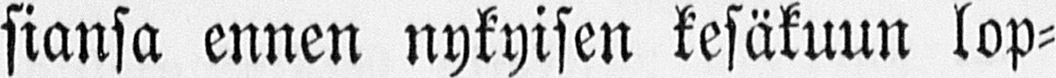siansa ennen nykyisen kesäkuun lop-
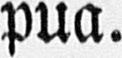pua.
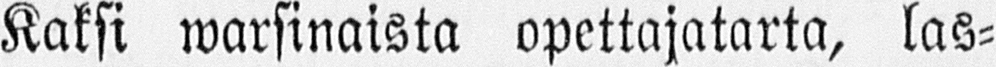Kaksi warsinaista opettajatarta, las-
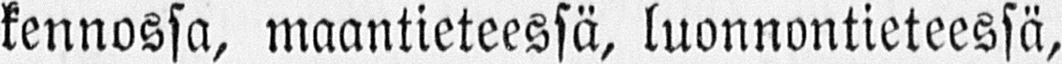kennossa, maantieteessä, luonnontieteessä.
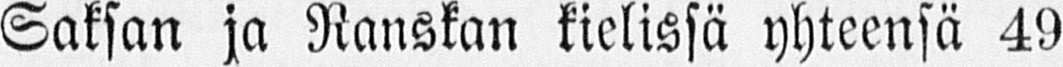Saksan ja Ranskan kielissä yhteensä 49
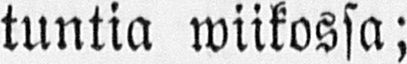tuntia wiikossa;
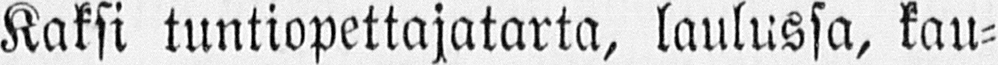Kaksi tuntiopettajatarta, laulussa, kau-
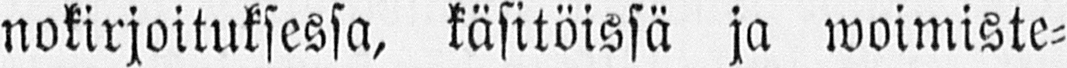nokirjoituksessa, käsitöissä ja woimiste-
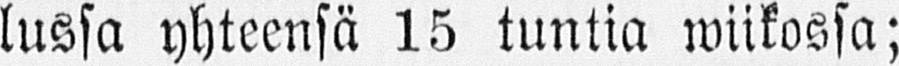lussa yhteensä 15 tuntia wiikossa;
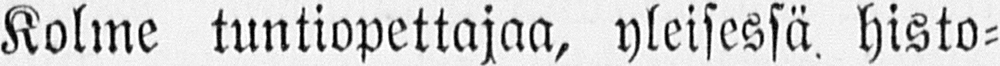Kolme tuntiopettajaa, yleisessä histo-
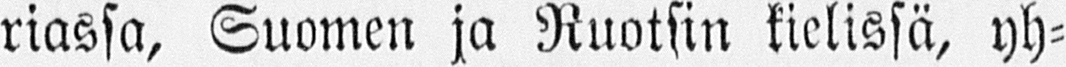riassa, Suomen ja Ruotsin kielissä, yh-
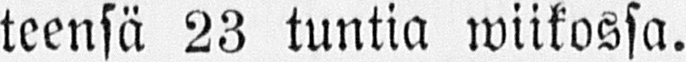teensä 23 tuntia wiikossa.
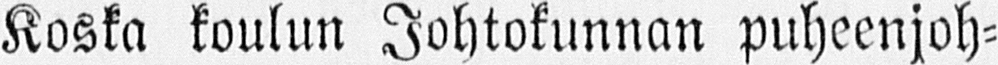Koska koulun Johtokunnan puheenjoh-
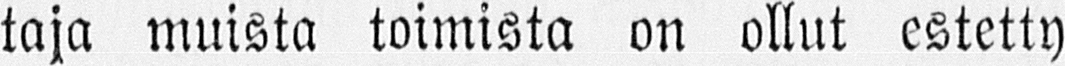taja muista toimista on ollut estetty
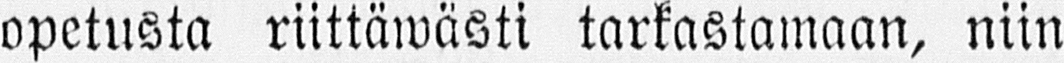opetusta riittäwästi tarkastamaan, niin
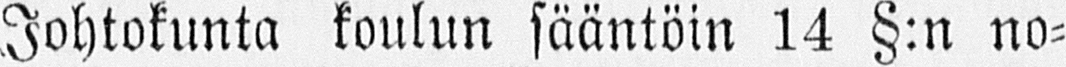Johtokunta koulun sääntöin 14 §:n no-
